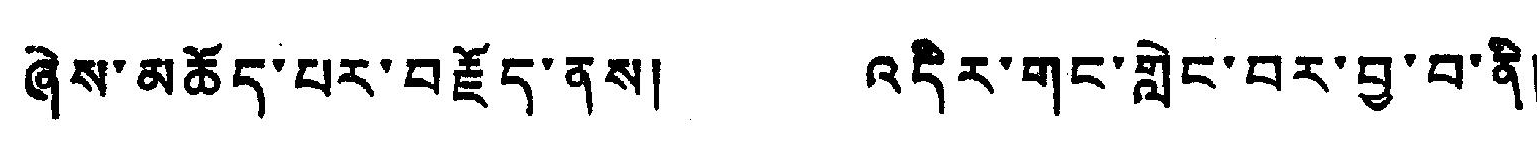ཞེས་མཆོད་པར་བརྗོད་ནས། འདིར་གང་གླེང་བར་བྱ་བ་ནི།
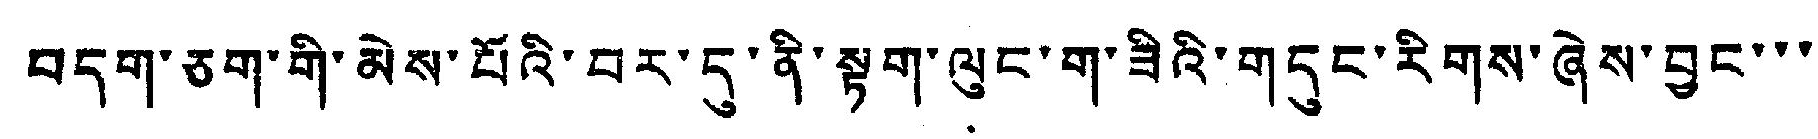བདག་ཅག་གི་མེས་པོའི་བར་དུ་ནི་སྟག་ལུང་ག་ཟིའི་གདུང་རིགས་ཞེས་བྱང་་་
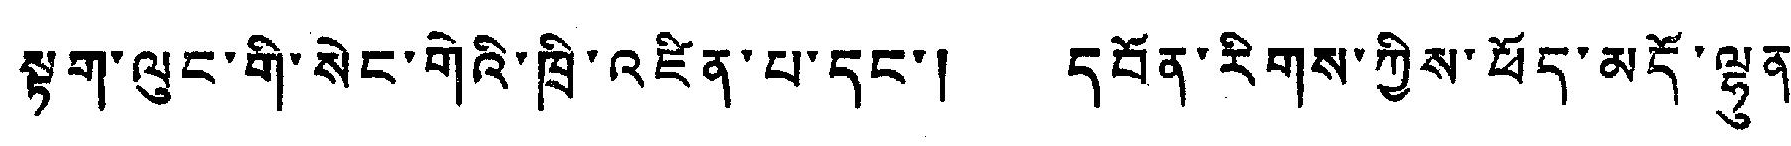སྟག་ལུང་གི་སེང་གེའི་ཁྲི་འཛིན་པ་དང་། དབོན་རིགས་ཀྱིས་ཕོད་མདོ་ལྷན་
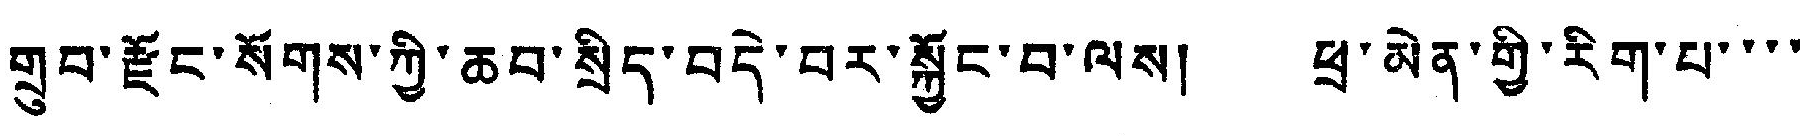གྲུབ་རྫོང་སོགས་ཀྱི་ཆབ་སྲིད་བདེ་བར་སྐྱོང་བ་ལས། ཕྲ་མེན་གྱི་རིག་པ་་་་
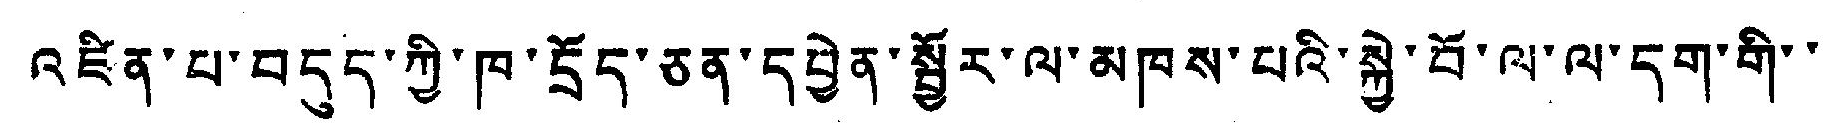འཛིན་པ་བདུད་ཀྱི་ཁ་དྲོད་ཅན་དབྱེན་སྦྱོར་ལ་མཁས་པའི་སྐྱེ་བོ་ལ་ལ་དག་གི་་
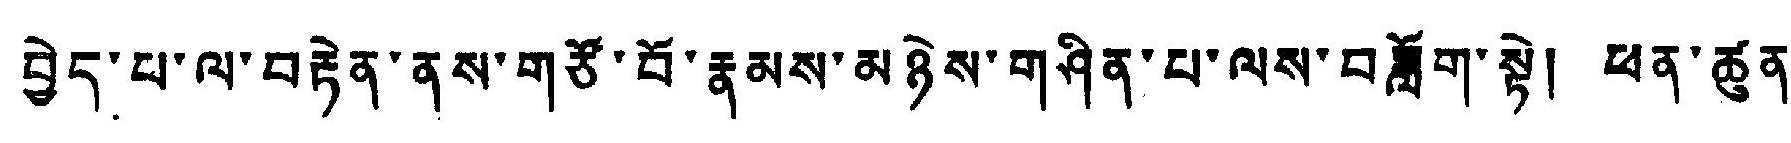བྱེད་པ་ལ་བརྟེན་ནས་གཙོ་བོ་རྣམས་མཉེས་གཤིན་པ་ལས་བཟློག་སྟེ། ཕན་ཚུན་
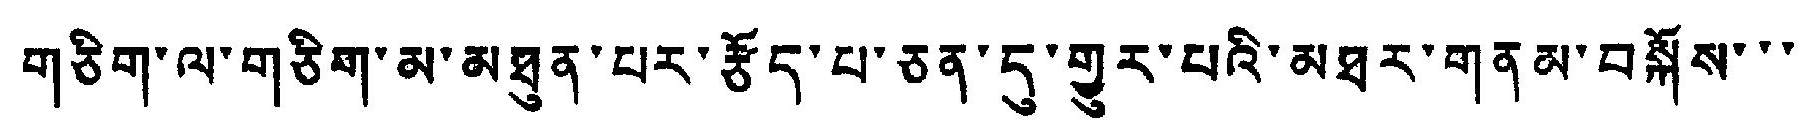གཅིག་ལ་གཅིག་མ་མཐུན་པར་རྩོད་པ་ཅན་དུ་གྱུར་པའི་མཐར་གནམ་བསྐོས་་་
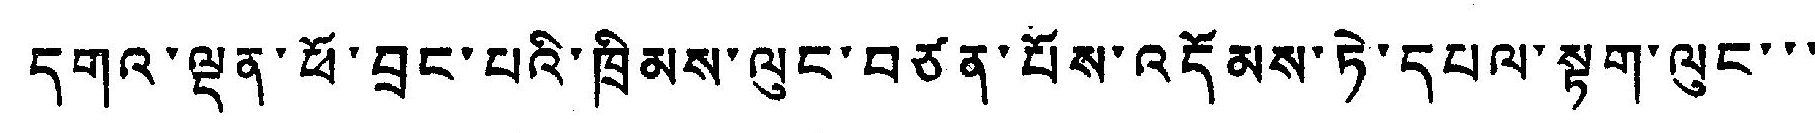དགའ་ལྡན་ཕོ་བྲང་པའི་ཁྲིམས་ལུང་བཙན་པོས་འདོམས་ཏེ་དཔལ་སྟག་ལུང་་་
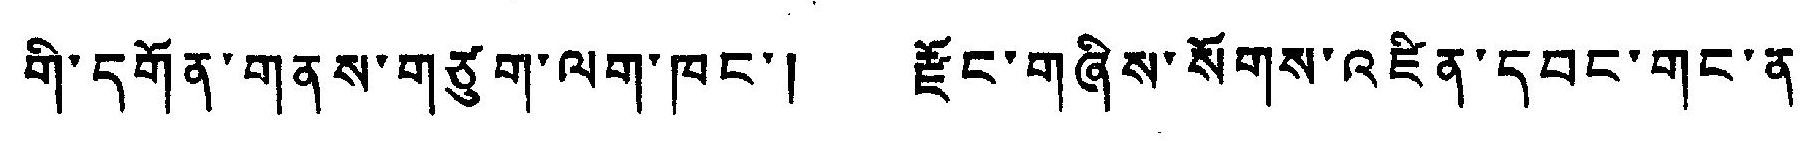གི་དགོན་གནས་གཙུག་ལག་ཁང་། རྫོང་གཞིས་སོགས་འཛིན་དབང་གང་ན་
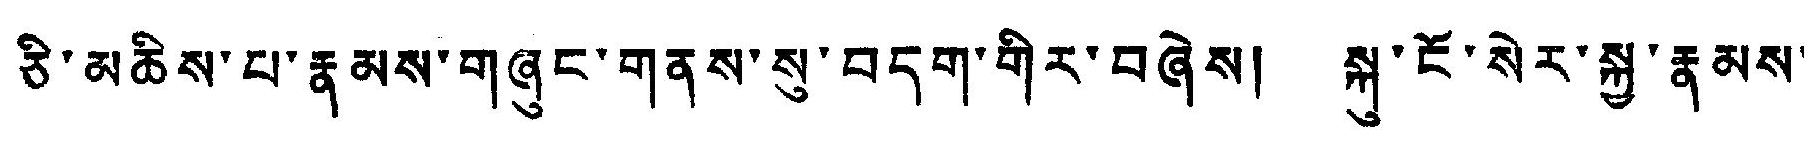ཆི་མཆིས་པ་རྣམས་གཞུང་གནས་སུ་བདག་གིར་བཞེས། སྐུ་ངོ་སེར་སྐྱ་རྣམས་་
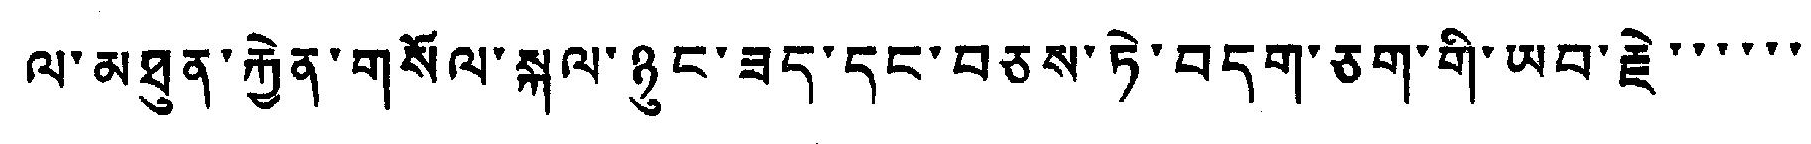ལ་མཐུན་རྐྱེན་གསོལ་སྐལ་ཉུང་ཟད་དང་བཅས་ཏེ་བདག་ཅག་གི་ཡབ་རྗེ་་་་་་
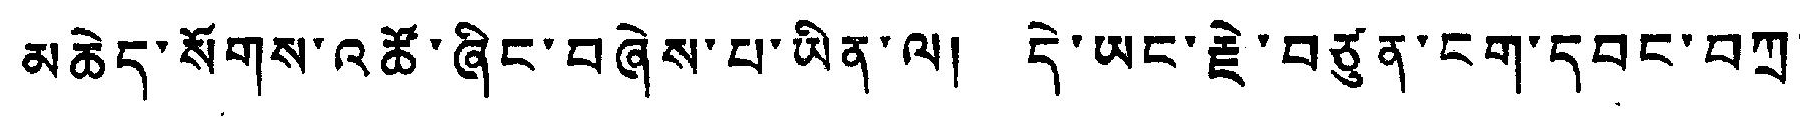མཆེད་སོགས་འཚོ་ཞིང་བཞེས་པ་ཡིན་ལ། དེ་ཡང་རྗེ་བཙུན་ངག་དབང་བཀྲ་
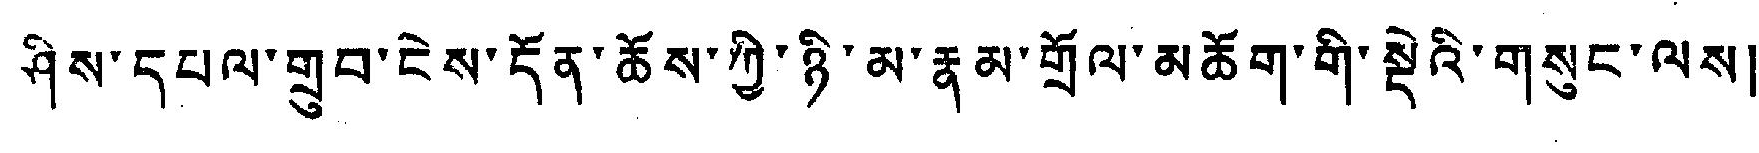ཤིས་དཔལ་གྲུབ་ངེས་དོན་ཆོས་ཀྱི་ཉི་མ་རྣམ་གྲོལ་མཆོག་གི་སྡེའི་གསུང་ལས།
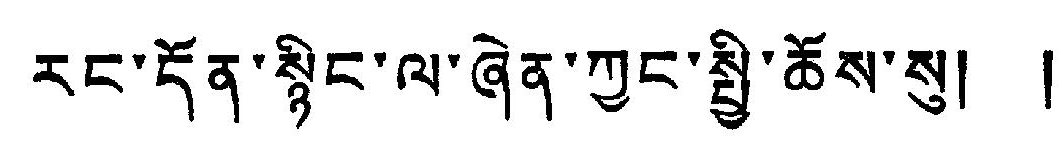རུང་དོན་སྙིང་ལ་ཞེན་ཀྱང་སྤྱི་ཆོས་སུ། །
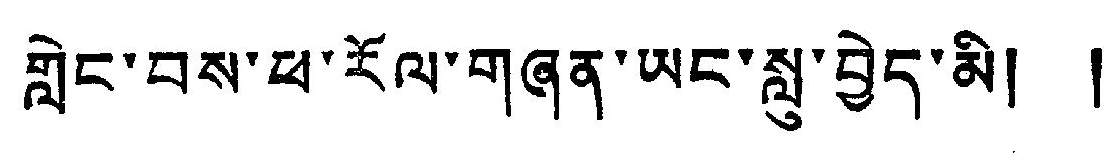གླེང་བྱས་ཕ་རོལ་གཞན་ཡང་སླུ་བྱེད་མི། །
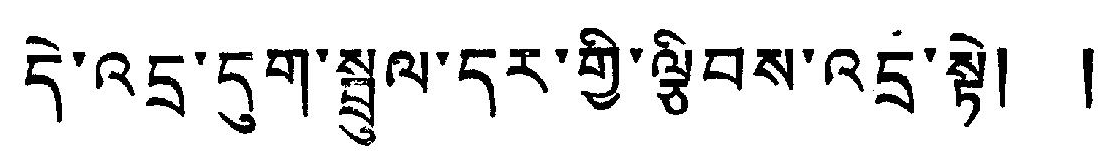དེ་འདྲ་དུག་སྦྲུལ་དར་གྱི་ལྕིབས་འདྲ་སྟེ། །
